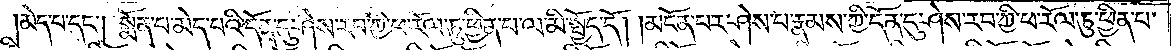མེད་པ་དང༌། སྨོན་པ་མེད་པའི་དོན་དུ་ཤེས་རབ་ཀྱི་ཕ་རོལ་ཏུ་ཕྱིན་པ་ལ་མི་སྤྱོད་དོ། །མངོན་པར་ཤེས་པ་རྣམས་ཀྱི་དོན་དུ་ཤེས་རབ་ཀྱི་ཕ་རོལ་ཏུ་ཕྱིན་པ་
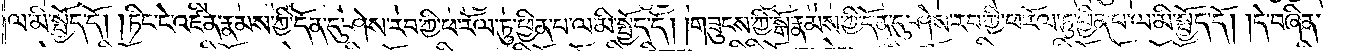ལ་མི་སྤྱོད་དོ། །ཏིང་ངེ་འཛིན་རྣམས་ཀྱི་དོན་དུ་ཤེས་རབ་ཀྱི་ཕ་རོལ་ཏུ་ཕྱིན་པ་ལ་མི་སྤྱོད་དོ། །གཟུངས་ཀྱི་སྒོ་རྣམས་ཀྱི་དོན་དུ་ཤེས་རབ་ཀྱི་ཕ་རོལ་ཏུ་ཕྱིན་པ་ལ་མི་སྤྱོད་དོ། །དེ་བཞིན་
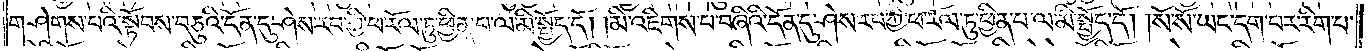གཤེགས་པའི་སྟོབས་བཅུའི་དོན་དུ་ཤེས་རབ་ཀྱི་ཕ་རོལ་ཏུ་ཕྱིན་པ་ལ་མི་སྤྱོད་དོ། །མི་འཇིགས་པ་བཞིའི་དོན་དུ་ཤེས་རབ་ཀྱི་ཕ་རོལ་ཏུ་ཕྱིན་པ་ལ་མི་སྤྱོད་དོ། །སོ་སོ་ཡང་དག་པར་རིག་པ་
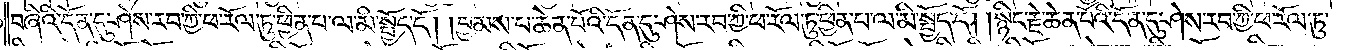བཞིའི་དོན་དུ་ཤེས་རབ་ཀྱི་ཕ་རོལ་ཏུ་ཕྱིན་པ་ལ་མི་སྤྱོད་དོ། །བྱམས་པ་ཆེན་པོའི་དོན་དུ་ཤེས་རབ་ཀྱི་ཕ་རོལ་ཏུ་ཕྱིན་པ་ལ་མི་སྤྱོད་དོ། །སྙིང་རྗེ་ཆེན་པོའི་དོན་དུ་ཤེས་རབ་ཀྱི་ཕ་རོལ་ཏུ་
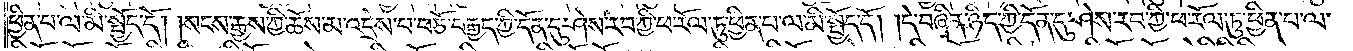ཕྱིན་པ་ལ་མི་སྤྱོད་དོ། །སངས་རྒྱས་ཀྱི་ཆོས་མ་འདྲེས་པ་བཅོ་བརྒྱད་ཀྱི་དོན་དུ་ཤེས་རབ་ཀྱི་ཕ་རོལ་ཏུ་ཕྱིན་པ་ལ་མི་སྤྱོད་དོ། །དེ་བཞིན་ཉིད་ཀྱི་དོན་དུ་ཤེས་རབ་ཀྱི་ཕ་རོལ་ཏུ་ཕྱིན་པ་ལ་
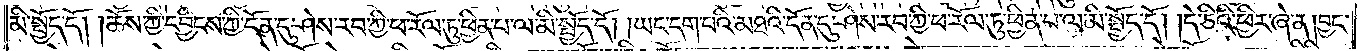མི་སྤྱོད་དོ། །ཆོས་ཀྱི་དབྱིངས་ཀྱི་དོན་དུ་ཤེས་རབ་ཀྱི་ཕ་རོལ་ཏུ་ཕྱིན་པ་ལ་མི་སྤྱོད་དོ། །ཡང་དག་པའི་མཐའི་དོན་དུ་ཤེས་རབ་ཀྱི་ཕ་རོལ་ཏུ་ཕྱིན་པ་ལ་མི་སྤྱོད་དོ། །དེ་ཅིའི་ཕྱིར་ཞེ་ན་།བྱང་
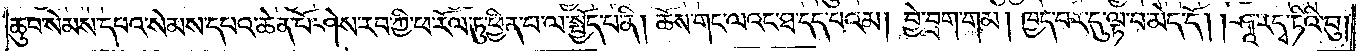ཆུབ་སེམས་དཔའ་སེམས་དཔའ་ཆེན་པོ་ཤེས་རབ་ཀྱི་ཕ་རོལ་ཏུ་ཕྱིན་པ་ལ་སྤྱོད་པ་ནི། ཆོས་གང་ལའང་ཐ་དད་པའམ། བྱེ་བྲག་གམ། ཁྱད་བར་དུ་ལྟ་བ་མེད་དོ། །ཤཱ་རདྭ་ཏིའི་བུ།
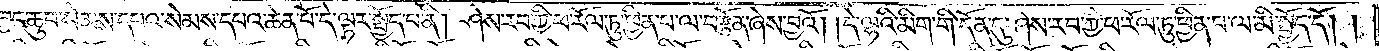བྱང་ཆུབ་སེམས་དཔའ་སེམས་དཔའ་ཆེན་པོ་དེ་ལྟར་སྤྱོད་པ་ནི། ཤེས་རབ་ཀྱི་ཕ་རོལ་ཏུ་ཕྱིན་པ་ལ་བརྩོན་ཞེས་བྱའོ། །དེ་ལྷའི་མིག་གི་དོན་དུ་ཤེས་རབ་ཀྱི་ཕ་རོལ་ཏུ་ཕྱིན་པ་ལ་མི་སྤྱོད་དོ། །
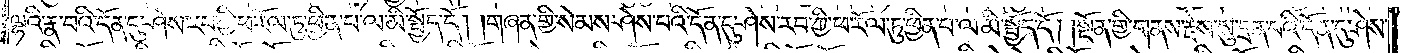ལྷའི་རྣ་བའི་དོན་དུ་ཤེས་རབ་ཀྱི་ཕ་རོལ་ཏུ་ཕྱིན་པ་ལ་མི་སྤྱོད་དོ། །གཞན་གྱི་སེམས་ཤེས་པའི་དོན་དུ་ཤེས་རབ་ཀྱི་ཕ་རོལ་ཏུ་ཕྱིན་པ་ལ་མི་སྤྱོད་དོ། །སྔོན་གྱི་གནས་རྗེས་སུ་དྲན་པའི་དོན་དུ་ཤེས་
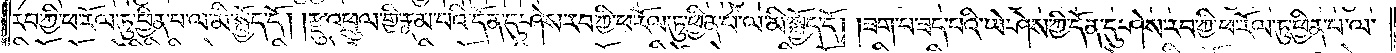རབ་ཀྱི་ཕ་རོལ་ཏུ་ཕྱིན་པ་ལ་མི་སྤྱོད་དོ། །རྫུ་འཕྲུལ་གྱི་རྣམ་པའི་དོན་དུ་ཤེས་རབ་ཀྱི་ཕ་རོལ་ཏུ་ཕྱིན་པ་ལ་མི་སྤྱོད་དོ། །ཟག་པ་ཟད་པའི་ཡེ་ཤེས་ཀྱི་དོན་དུ་ཤེས་རབ་ཀྱི་ཕ་རོལ་ཏུ་ཕྱིན་པ་ལ་
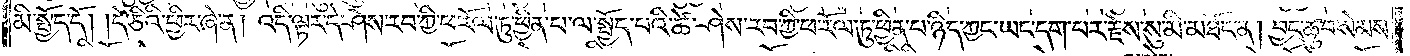མི་སྤྱོད་དོ། །དེ་ཅིའི་ཕྱིར་ཞེ་ན། འདི་ལྟར་དེ་ཤེས་རབ་ཀྱི་ཕ་རོལ་ཏུ་ཕྱིན་པ་ལ་སྤྱོད་པའི་ཚེ་ཤེས་རབ་ཀྱི་ཕ་རོལ་ཏུ་ཕྱིན་པ་ཉིད་ཀྱང་ཡང་དག་པར་རྗེས་སུ་མི་མཐོང་ན། བྱང་ཆུབ་སེམས་
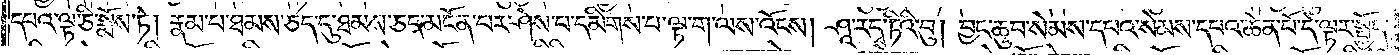དཔའ་ལྟ་ཅི་སྨོས་ཏེ། རྣམ་པ་ཐམས་ཅད་དུ་ཐམས་ཅད་མངོན་པར་ཤེས་པ་དམིགས་པ་ལྟ་ག་ལས་འོངས། ཤཱ་ར་དྭ་ཏིའི་བུ། བྱང་ཆུབ་སེམས་དཔའ་སེམས་དཔའ་ཆེན་པོ་དེ་ལྟར་སྤྱོད་
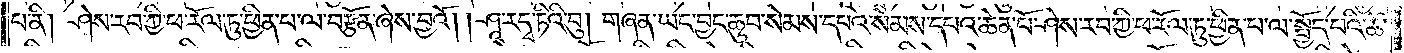པ་ནི། ཤེས་རབ་ཀྱི་ཕ་རོལ་ཏུ་ཕྱིན་པ་ལ་བརྩོན་ཞེས་བྱའོ། །ཤཱ་ར་དྭ་ཏིའི་བུ། གཞན་ཡང་བྱང་ཆུབ་སེམས་དཔའ་སེམས་དཔའ་ཆེན་པོ་ཤེས་རབ་ཀྱི་ཕ་རོལ་ཏུ་ཕྱིན་པ་ལ་སྤྱོད་པའི་ཚེ་
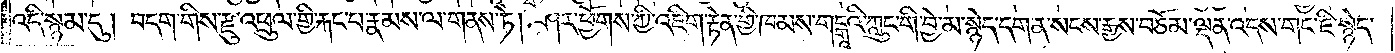འདི་སྙམ་དུ། བདག་གིས་རྫུ་འཕྲུལ་གྱི་རྐང་པ་རྣམས་ལ་གནས་ཏེ། ཤར་ཕྱོགས་ཀྱི་འཇིག་རྟེན་གྱི་ཁམས་གངྒཱའི་ཀླུང་གི་བྱེ་མ་སྙེད་དག་ན་སངས་རྒྱས་བཅོམ་ལྡན་འདས་གང་ཇི་སྙེད་
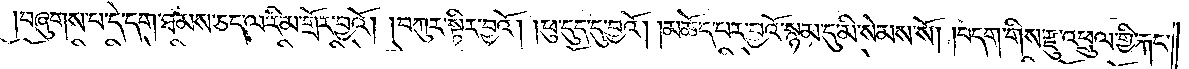བཞུགས་པ་དེ་དག་ཐམས་ཅད་ལ་རིམ་གྲོར་བྱའོ། །བཀུར་སྟིར་བྱའོ། །ཕུ་དུད་དུ་བྱའོ། །མཆོད་པར་བྱའོ་སྙམ་དུ་མི་སེམས་སོ། །བདག་གིས་རྫུ་འཕྲུལ་གྱི་རྐང་
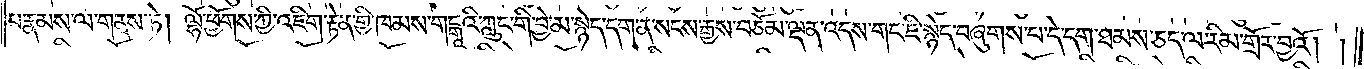པ་རྣམས་ལ་གནས་ཏེ། ལྷོ་ཕྱོགས་ཀྱི་འཇིག་རྟེན་གྱི་ཁམས་གངྒཱའི་ཀླུང་གི་བྱེ་མ་སྙེད་དག་ན་སངས་རྒྱས་བཅོམ་ལྡན་འདས་གང་ཇི་སྙེད་བཞུགས་པ་དེ་དག་ཐམས་ཅད་ལ་རིམ་གྲོར་བྱའོ། །
